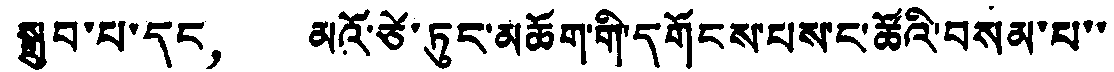སྒྲུབ་པ་དང， མའོ་ཙེ་ཏུང་མཆོག་གི་དགོངས་པས་ང་ཚོའི་བསམ་པ་་
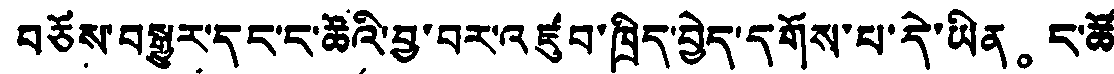བཅོས་བསྒྱུར་དང་ང་ཚོའི་བྱ་བར་འཛུབ་ཁྲིད་བྱེད་དགོས་པ་དེ་ཡིན。 ང་ཚོ
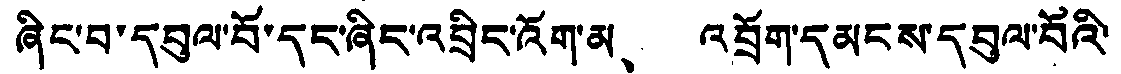ཞིང་བ་དབུལ་བོ་དང་ཞིང་འབྲིང་འོག་མ、 འབྲོག་དམངས་དབུལ་བོའི་
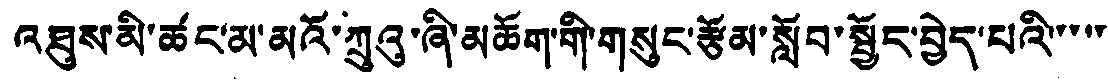འཐུས་མི་ཚང་མ་མའོ་ཀྲུའུ་ཞི་མཆོག་གི་གསུང་རྩོམ་སློབ་སྦྱོད་བྱེད་པའི་་་་་
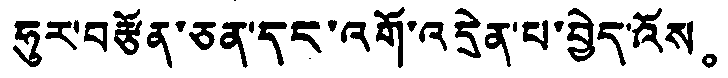ཧུར་བརྩོན་ཅན་དང་འགོ་འདྲེན་པ་བྱེད་འོས。
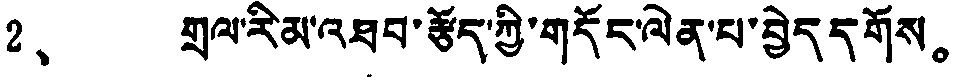2、 གྲལ་རིམ་འཐབ་རྩོད་ཀྱི་གདོང་ལེན་པ་བྱེད དགོས。
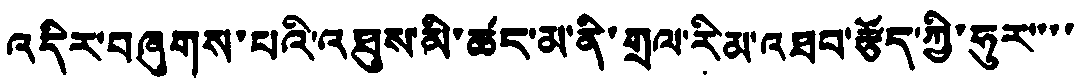འདིར་བཞུགས་པའི་འཐུས་མི་ཚང་མ་ནི་གྲལ་རིམ་འཐབ་རྩོད་ཀྱི་ཧུར་་་་
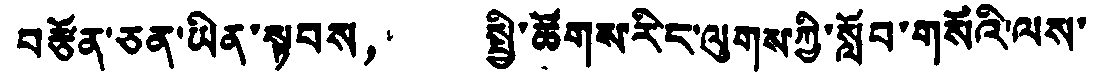བརྩོན་ཅན་ཡིན་སྟབས， སྤྱི་ཚོགས་རིང་ལུགས་ཀྱི་སློབ་གསོའི་ལས་
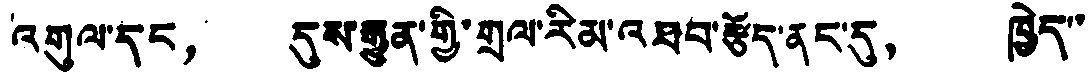འགུལ་དང， དུས་རྒྱུན་གྱི་གྲལ་རིམ་འཐབ་རྩོད་ནང་དུ， ཁྱེད་་
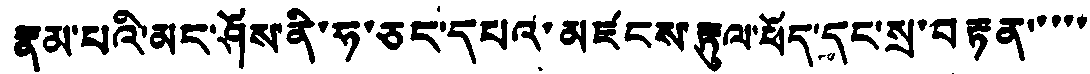རྣམ་པའི་མང་ཤོས་ནི་ཧ་ཅང་དཔའ་མཛངས་རྟུལ་ཕོད་དང་སྲ་བརྟན་་་་་
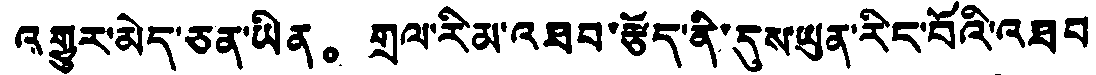འགྱུར་མེད་ཅན་ཡིན。 གྲལ་རིམ་འཐབ་རྩོད་ནི་དུས་ཡུན་རིང་བོའི་འཐབ
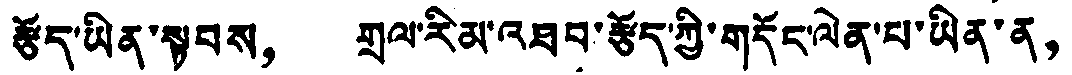རྩོད་ཡིན་སྟབས， གྲལ་རིམ་འཐབ་རྩོད་ཀྱི་གདོང་ལེན་པ་ཡིན་ན，
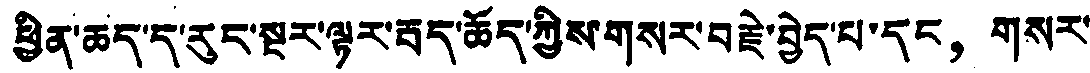ཕྱིན་ཆད་ད་རུང་སྔར་ལྟར་རྦད་ཆོད་ཀྱིས་གསར་བརྗེ་བྱེད་པ་དང， གསར་
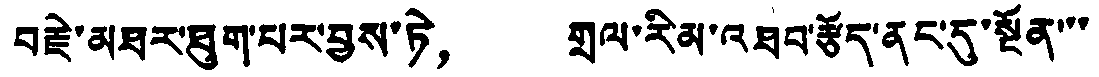བརྗེ་མཐར་ཐུག་པར་བྱས་ཏེ， གྲལ་རིམ་འཐབ་རྩོད་ནང་དུ་སྔོན་་་
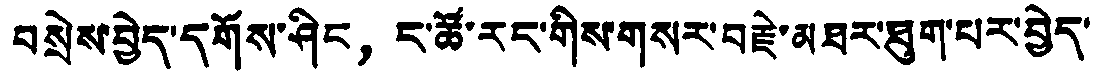བསྲེས་བྱེད་དགོས་ཤིང， ང་ཚོ་རང་གིས་གསར་བརྗེ་མཐར་ཐུག་པར་བྱེད་
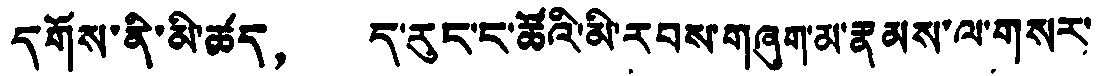དགོས་ནི་མི་ཚད， ད་རུང་ང་ཚོའི་མི་རབས་གཞུག་མ་རྣམས་ལ་གསར་
